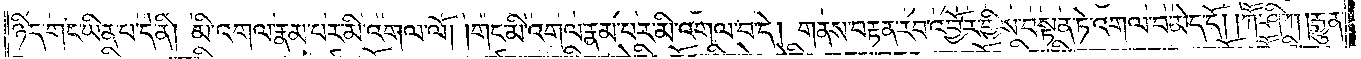ཉིད་གང་ཡིན་པ་དེ་ནི། མི་འགལ་རྣམ་པར་མི་འགལ་ལོ། །གང་མི་འགལ་རྣམ་པར་མི་འགལ་བ་དེ། གནས་བརྟན་རབ་འབྱོར་གྱིས་བསྟན་ཏེ་འགལ་བ་མེད་དོ། །ཀཽ་ཤི་ཀ །རྒྱུན་
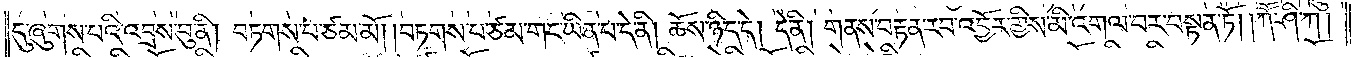དུ་ཞུགས་པའི་འབྲས་བུ་ནི། བཏགས་པ་ཙམ་མོ། །བཏགས་པ་ཙམ་གང་ཡིན་པ་དེ་ནི། ཆོས་ཉིད་དེ། དེ་ནི། གནས་བརྟན་རབ་འབྱོར་གྱིས་མི་འགལ་བར་བསྟན་ཏོ། །ཀཽ་ཤི་ཀ །
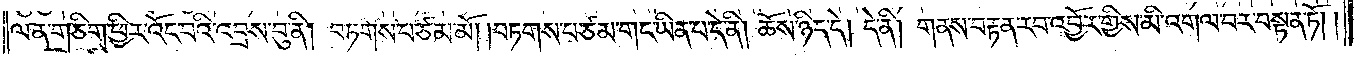ལན་གཅིག་ཕྱིར་འོང་བའི་འབྲས་བུ་ནི། བཏགས་པ་ཙམ་མོ། །བཏགས་པ་ཙམ་གང་ཡིན་པ་དེ་ནི། ཆོས་ཉིད་དེ། དེ་ནི། གནས་བརྟན་རབ་འབྱོར་གྱིས་མི་འགལ་བར་བསྟན་ཏོ། །
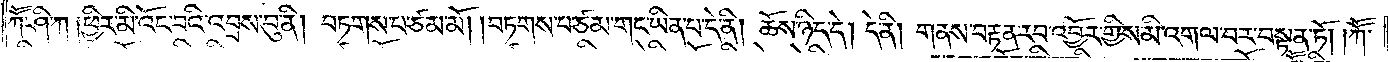ཀཽ་ཤི་ཀ །ཕྱིར་མི་འོང་བའི་འབྲས་བུ་ནི། བཏགས་པ་ཙམ་མོ། །བཏགས་པ་ཙམ་གང་ཡིན་པ་དེ་ནི། ཆོས་ཉིད་དེ། དེ་ནི། གནས་བརྟན་རབ་འབྱོར་གྱིས་མི་འགལ་བར་བསྟན་ཏོ། །ཀཽ་
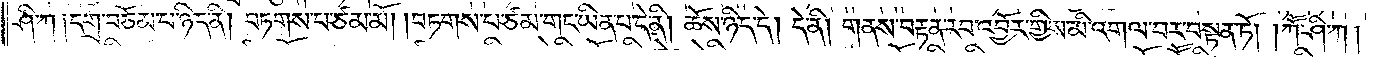ཤི་ཀ །དགྲ་བཅོམ་པ་ཉིད་ནི། བཏགས་པ་ཙམ་མོ། །བཏགས་པ་ཙམ་གང་ཡིན་པ་དེ་ནི། ཆོས་ཉིད་དེ། དེ་ནི། གནས་བརྟན་རབ་འབྱོར་གྱིས་མི་འགལ་བར་བསྟན་ཏོ། །ཀཽ་ཤི་ཀ །
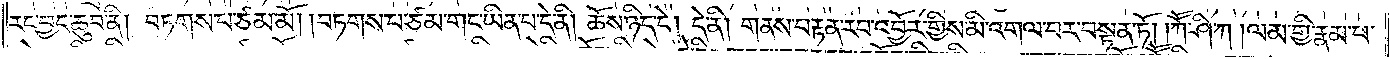རང་བྱང་ཆུབ་ནི། བཏགས་པ་ཙམ་མོ། །བཏགས་པ་ཙམ་གང་ཡིན་པ་དེ་ནི། ཆོས་ཉིད་དེ། དེ་ནི། གནས་བརྟན་རབ་འབྱོར་གྱིས་མི་འགལ་བར་བསྟན་ཏོ། །ཀཽ་ཤི་ཀ །ལམ་གྱི་རྣམ་པ་
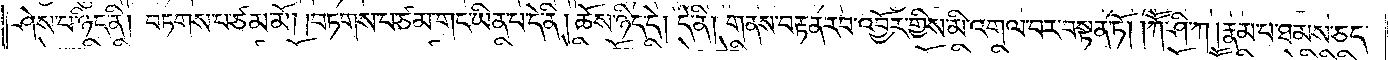ཤེས་པ་ཉིད་ནི། བཏགས་པ་ཙམ་མོ། །བཏགས་པ་ཙམ་གང་ཡིན་པ་དེ་ནི། ཆོས་ཉིད་དེ། དེ་ནི། གནས་བརྟན་རབ་འབྱོར་གྱིས་མི་འགལ་བར་བསྟན་ཏོ། །ཀཽ་ཤི་ཀ །རྣམ་པ་ཐམས་ཅད་
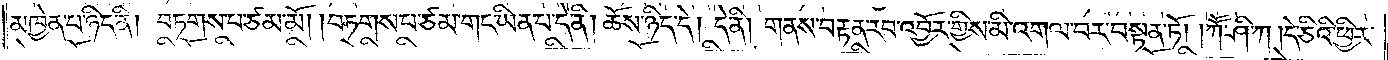མཁྱེན་པ་ཉིད་ནི། བཏགས་པ་ཙམ་མོ། །བཏགས་པ་ཙམ་གང་ཡིན་པ་དེ་ནི། ཆོས་ཉིད་དེ། དེ་ནི། གནས་བརྟན་རབ་འབྱོར་གྱིས་མི་འགལ་བར་བསྟན་ཏོ། །ཀཽ་ཤི་ཀ །དེ་ཅིའི་ཕྱིར་
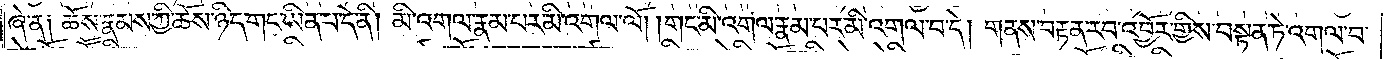ཞེ་ན། ཆོས་རྣམས་ཀྱི་ཆོས་ཉིད་གང་ཡིན་པ་དེ་ནི། མི་འགལ་རྣམ་པར་མི་འགལ་ལོ། །གང་མི་འགལ་རྣམ་པར་མི་འགལ་བ་དེ། གནས་བརྟན་རབ་འབྱོར་གྱིས་བསྟན་ཏེ་འགལ་བ་
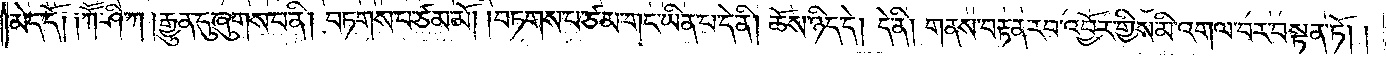མེད་དོ། །ཀཽ་ཤི་ཀ །རྒྱུན་དུ་ཞུགས་པ་ནི། བཏགས་པ་ཙམ་མོ། །བཏགས་པ་ཙམ་གང་ཡིན་པ་དེ་ནི། ཆོས་ཉིད་དེ། དེ་ནི། གནས་བརྟན་རབ་འབྱོར་གྱིས་མི་འགལ་བར་བསྟན་ཏོ། །
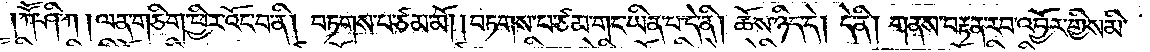ཀཽ་ཤི་ཀ །ལན་ཅིག་ཕྱིར་འོང་བ་ནི། བཏགས་པ་ཙམ་མོ། །བཏགས་པ་ཙམ་གང་ཡིན་པ་དེ་ནི། ཆོས་ཉིད་དེ། དེ་ནི། གནས་བརྟན་རབ་འབྱོར་གྱིས་མི་
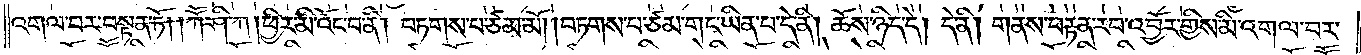འགལ་བར་བསྟན་ཏོ། །ཀཽ་ཤི་ཀ །ཕྱིར་མི་འོང་བ་ནི། བཏགས་པ་ཙམ་མོ། །བཏགས་པ་ཙམ་གང་ཡིན་པ་དེ་ནི། ཆོས་ཉིད་དེ། དེ་ནི། གནས་བརྟན་རབ་འབྱོར་གྱིས་མི་འགལ་བར་
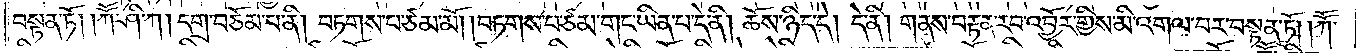བསྟན་ཏོ། །ཀཽ་ཤི་ཀ། དགྲ་བཅོམ་པ་ནི། བཏགས་པ་ཙམ་མོ། །བཏགས་པ་ཙམ་གང་ཡིན་པ་དེ་ནི། ཆོས་ཉིད་དེ། དེ་ནི། གནས་བརྟན་རབ་འབྱོར་གྱིས་མི་འགལ་བར་བསྟན་ཏོ། །ཀཽ་
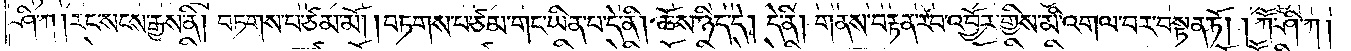ཤི་ཀ །རང་སངས་རྒྱས་ནི། བཏགས་པ་ཙམ་མོ། །བཏགས་པ་ཙམ་གང་ཡིན་པ་དེ་ནི། ཆོས་ཉིད་དེ། དེ་ནི། གནས་བརྟན་རབ་འབྱོར་གྱིས་མི་འགལ་བར་བསྟན་ཏོ། །ཀཽ་ཤི་ཀ །
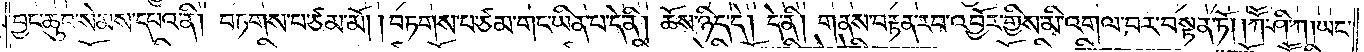བྱང་ཆུབ་སེམས་དཔའ་ནི། བཏགས་པ་ཙམ་མོ། །བཏགས་པ་ཙམ་གང་ཡིན་པ་དེ་ནི། ཆོས་ཉིད་དེ། དེ་ནི། གནས་བརྟན་རབ་འབྱོར་གྱིས་མི་འགལ་བར་བསྟན་ཏོ། །ཀཽ་ཤི་ཀ །ཡང་
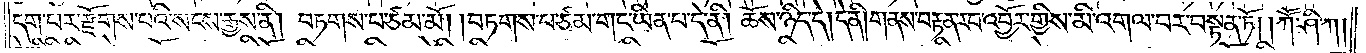དག་པར་རྫོགས་པའི་སངས་རྒྱས་ནི། བཏགས་པ་ཙམ་མོ། །བཏགས་པ་ཙམ་གང་ཡིན་པ་དེ་ནི། ཆོས་ཉིད་དེ། དེ་ནི། གནས་བརྟན་རབ་འབྱོར་གྱིས་མི་འགལ་བར་བསྟན་ཏོ། །ཀཽ་ཤི་ཀ །
